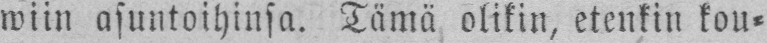wiin asuntoihinsa. Tämä olikin, etenkin kou-
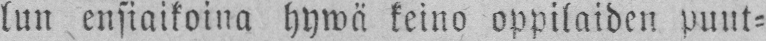lun ensiaikoina hywä keino oppilaiden puut-
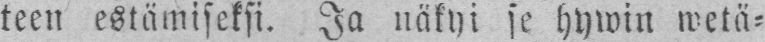teen estämiseksi. Ja näkyi se hywin wetä-
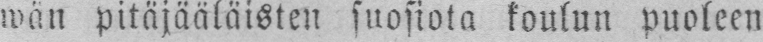wän pitäjääläisten suosiota koulun puoleen
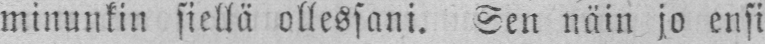minunkin siellä ollessani. Sen näin jo ensi
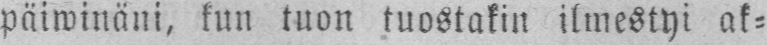päiwinäni, kun tuon tuostakin ilmestyi ak-
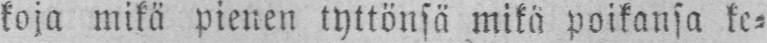koja mikä pienen tyttönsä mikä poikansa ke-
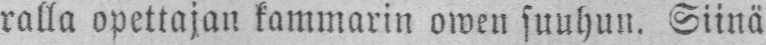ralla opettajan kammarin owen suuhun. Siinä
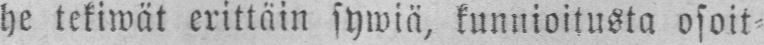he tekiwät erittäin sywiä, kunnioitusta osoit-
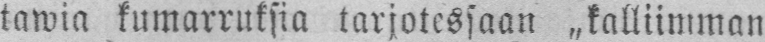tawia kumarruksia tarjotessaan „kalliimman
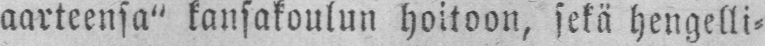aarteensa" kansakoulun hoitoon, sekä hengelli-
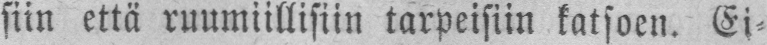siin että ruumiillisiin tarpeisiin katsoen. Ei-
